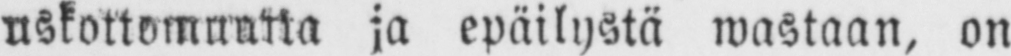uskottomuutta ja epäilystä wastaan, on
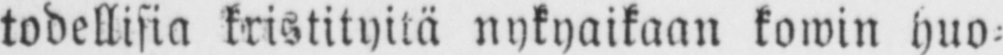todellisia kristityitä nykyaikaan kowin huo-
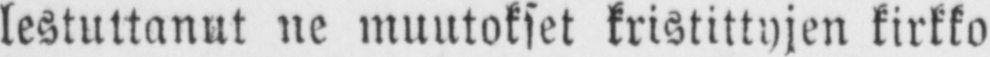lestuttanut ne muutokset kristittyjen kirkko
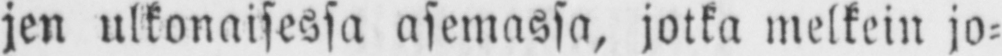jen ulkonaisessa asemassa, jotka melkein jo-
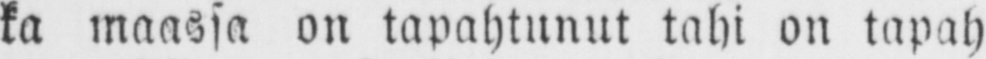ka maassa on tapahtunut tahi on tapah
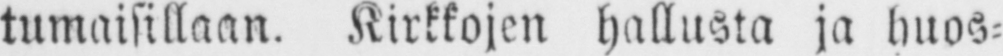tumaisillaan. Kirkkojen hallusta ja huos-
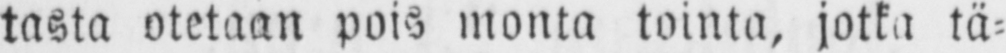tasta otetaan pois monta tointa, jotka tä-
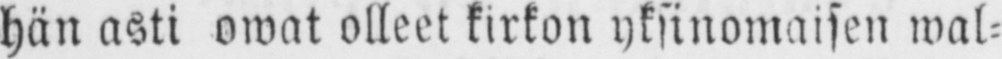hän asti owat olleet kirkon yksinomaisen wal-
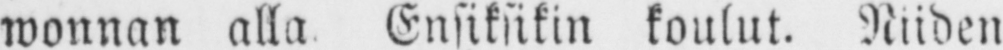wonnan alla Ensiksikin koulut. Niiden
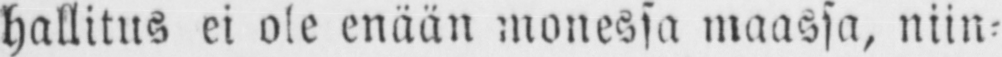hallitus ei ole enään monessa maassa, niin-
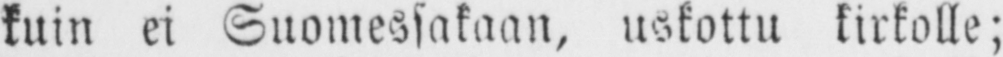kuin ei Suomessakaan, uskottu kirkolle;
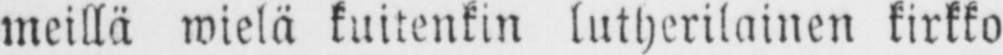meillä wielä kuitenkin lutherilainen kirkko
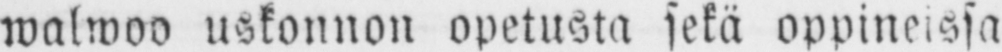walwoo uskonnon opetusta sekä oppineissa
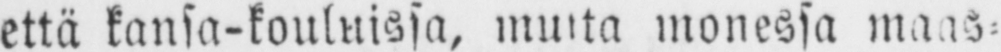että kansa-kouluissa, muita monessa maas-
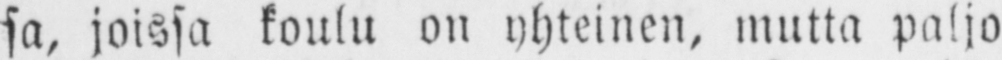sa, joissa koulu on yhteinen, mutta paljo
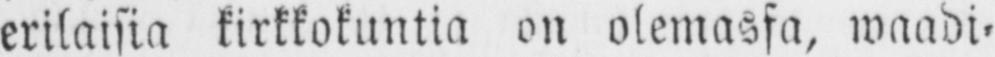erilaisia kirkkokuntia on olemassa, waadi-
